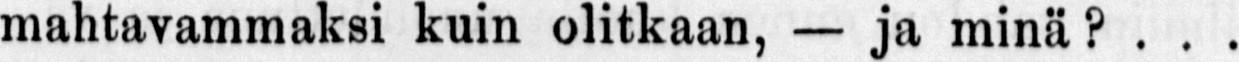mahtavammaksi kuin olitkaan, — ja minä? . . .
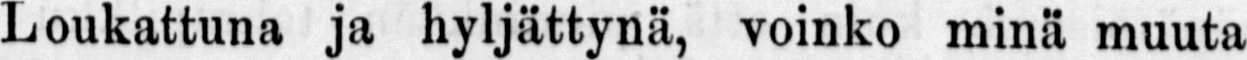Loukattuna ja voinko minä muuta
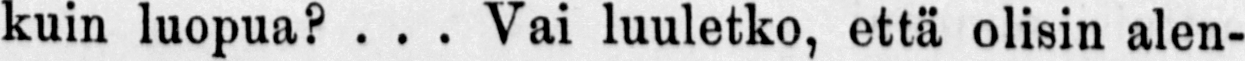kuin luopua? ...Vai luuletko, että olisin alen-
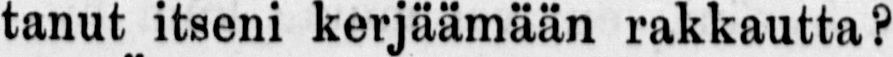tanut itseni kerjäämään rakkautta?
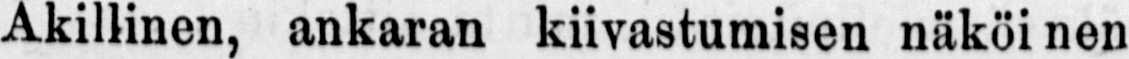Äkillinen, ankaran kiivastumisen näköinen
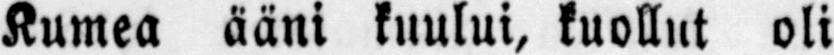Kumea ääni kuului, kuollut oli
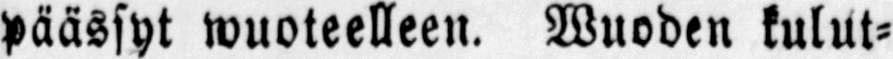päässyt wuoteelleen. Wuoden kulut-
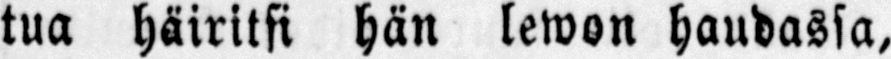tua häiritsi hän lewon haudassa,
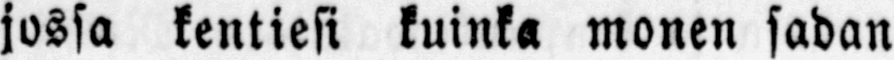jossa kentiesi kuinka monen sadan
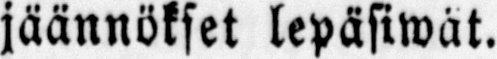jäännökset lepäsiwät.
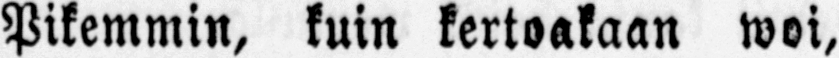Pikemmin, kuin kertoakaan woi,
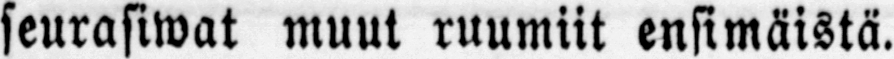seurasiwat muut ruumiit ensimäistä.
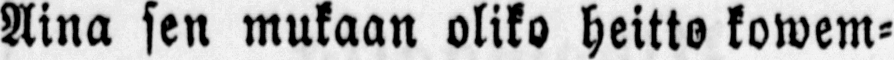Aina sen mukaan oliko heitto kowem-
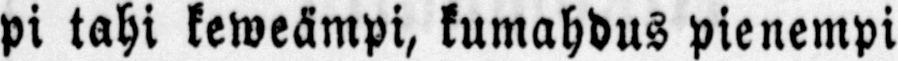pi tahi keweämpi, kumahdus pienempi
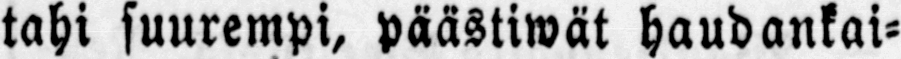tahi suurempi, päästiwät haudankai-
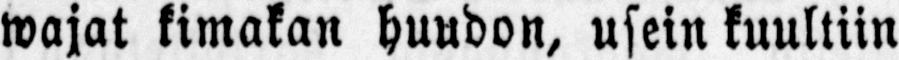wajat kimakan huudon, usein kuultiin
